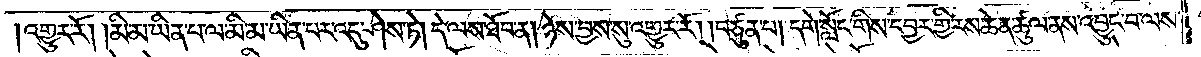འགྱུར་རོ། །མི་མ་ཡིན་པ་ལ་མི་མ་ཡིན་པར་འདུ་ཤེས་ཏེ། དེ་ལས་ཐོབ་ན། ཉེས་བྱས་སུ་འགྱུར་རོ། །བཙུན་པ། དགེ་སློང་གིས་དབྱར་གྱི་རས་ཆེན་ཚུལ་ནས་འབྱུང་བ་ལས་
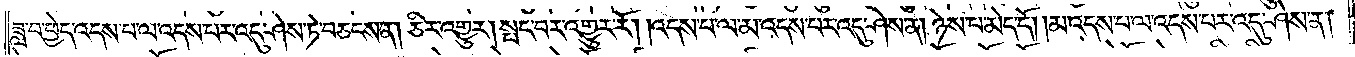ཟླ་བ་ཕྱེད་འདས་པ་ལ་འདས་པར་འདུ་ཤེས་ཏེ་བཅངས་ན། ཅིར་འགྱུར། སྤང་བར་འགྱུར་རོ། །འདས་པ་ལ་མ་འདས་པར་འདུ་ཤེས་ན། ཉེས་པ་མེད་དོ། །མ་འདས་པ་ལ་འདས་པར་འདུ་ཤེས་ན།
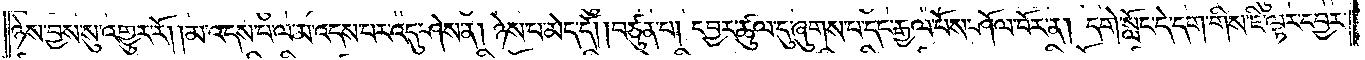ཉེས་བྱས་སུ་འགྱུར་རོ། །མ་འདས་པ་ལ་མ་འདས་པར་འདུ་ཤེས་ན། ཉེས་པ་མེད་དོ། །བཙུན་པ། དབྱར་ཚུལ་དུ་ཞུགས་པ་དང་རྒྱལ་པོས་ཤོལ་བོར་ན། དགེ་སློང་དེ་དག་གིས་ཇི་ལྟར་དབྱར་
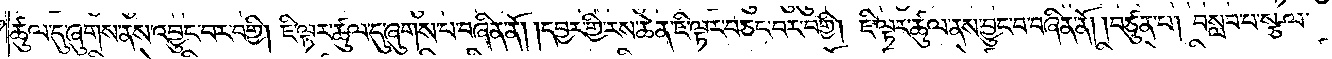ཚུལ་དུ་ཞུགས་ནས་འབྱུང་བར་བགྱི། ཇི་ལྟར་ཚུལ་དུ་ཞུགས་པ་བཞིན་ནོ། །དབྱར་གྱི་རས་ཆེན་ཇི་ལྟར་བཅང་བར་བགྱི། ཇི་ལྟར་ཚུལ་ནས་བྱུང་ང་བཞིན་ནོ། །བཙུན་པ། བསླབ་པ་སྩལ་
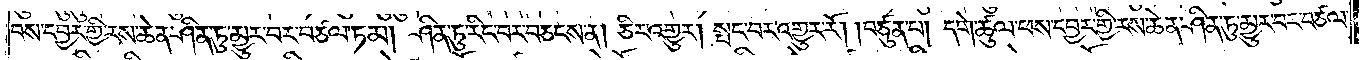བས་དབྱར་གྱི་རས་ཆེན་ཤིན་ཏུ་མྱུར་བར་བཙལ་ཏམ། ཤིན་ཏུ་རིང་བར་བཅངས་ན། ཅིར་འགྱུར། སྤང་བར་འགྱུར་རོ། །བཙུན་པ། དགེ་ཚུལ་ཕས་དབྱར་གྱི་རས་ཆེན་ཤིན་ཏུ་མྱུར་བར་བཙལ་
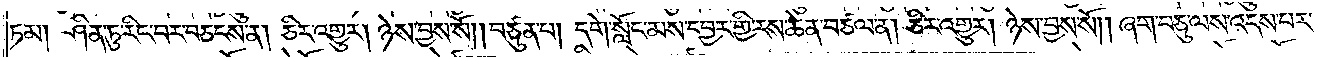ཏམ། ཤིན་ཏུ་རིང་བར་བཅངས་ན། ཅིར་འགྱུར། ཉེས་བྱས་སོ། །བཙུན་པ། དགེ་སློང་མས་དབྱར་གྱི་རས་ཆེན་བཙལ་ན། ཅིར་འགྱུར། ཉེས་བྱས་སོ། ཞག་བཅུ་ལས་འདས་པར་
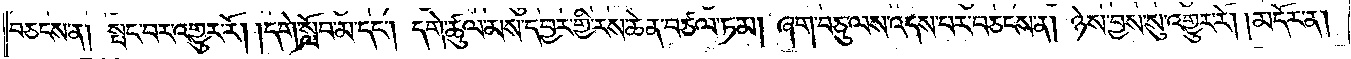བཅངས་ན། སྤང་བར་འགྱུར་རོ། །དགེ་སློབ་མ་དང༌། དགེ་ཚུལ་མས་དབྱར་གྱི་རས་ཆེན་བཙལ་ཏམ། ཞག་བཅུ་ལས་འདས་པར་བཅངས་ན། ཉེས་བྱས་སུ་འགྱུར་རོ། །མདོར་ན།
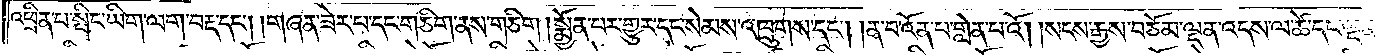འཕྲིན་པ་སྤྲིང་ཡིག་ལག་བརྡ་དང༌། །གཞན་ཟེར་པ་དང་གཅིག་ནས་གཅིག །སྨྱོན་པར་གྱུར་དང་སེམས་འཁྲུགས་དང༌། །ན་བ་འོན་པ་གླེན་པ་འོ། །སངས་རྒྱས་བཅོམ་ལྡན་འདས་ལ་ཚེ་དང་ལྡན་
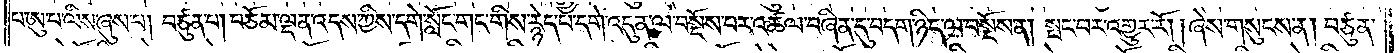པ་ཨུ་པ་ལིས་ཞུས་པ། བཙུན་པ། བཅོམ་ལྡན་འདས་ཀྱིས་དགེ་སློང་གང་གིས་རྙེད་པ་དགེ་འདུན་ལ་བསྔོས་པར་འཚལ་བཞིན་དུ་བདག་ཉིད་ལ་བསྔོས་ན། སྤང་བར་འགྱུར་རོ། །ཞེས་གསུངས་ན། བཙུན་
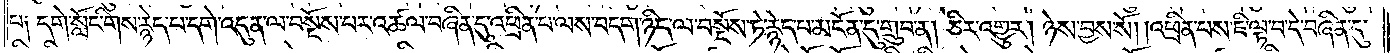པ༑ དགེ་སློང་གིས་རྙེད་པ་དགེ་འདུན་ལ་བསྔོས་པར་འཚལ་བཞིན་དུ་འཕྲིན་པ་ལས་བདག་ཉིད་ལ་བསྔོས་ཏེ་རྙེད་པ་མངོན་དུ་གྲུབ་ན། ཅིར་འགྱུར། ཉེས་བྱས་སོ། །འཕྲིན་པས་ཇི་ལྟ་བ་དེ་བཞིན་དུ་
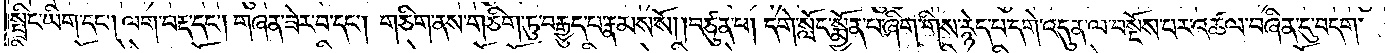སྤྲིང་ཡིག་དང༌། ལག་བརྡ་དང༌། གཞན་ཟེར་བ་དང༌། གཅིག་ནས་གཅིག་ཏུ་བརྒྱུད་པ་རྣམས་སོ། །བཙུན་པ། དགེ་སློང་སྨྱོན་པ་ཞིག་གིས་རྙེད་པ་དགེ་འདུན་ལ་བསྔོས་པར་འཚལ་བཞིན་དུ་བདག་
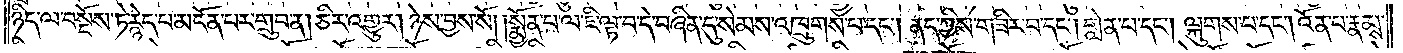ཉིད་ལ་བསྔོས་ཏེ་རྙེད་པ་མངོན་པར་གྲུབ་ན། ཅིར་འགྱུར། ཉེས་བྱས་སོ། །སྨྱོན་པ་ལ་ཇི་ལྟ་བ་དེ་བཞིན་དུ་སེམས་འཁྲུགས་པ་དང༌། ནད་ཀྱིས་གཟིར་བ་དང༌། གླེན་པ་དང༌། ལྐུགས་པ་དང༌། འོན་པ་རྣམས་
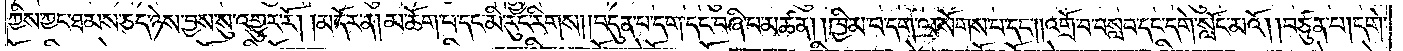ཀྱིས་ཀྱང་ཐམས་ཅད་ཉེས་བྱས་སུ་འགྱུར་རོ། །མདོར་ན། མ་ཆོག་པ་དང་མི་རུང་རིགས། །བདུན་པ་དག་དང་བཞི་པ་མཚན། །ཁྱིམ་པ་དག་ལ་སོགས་པ་དང༌། །འགྲོ་བ་བསླབ་དང་དགེ་སློང་མའོ། །བཙུན་པ། དགེ་
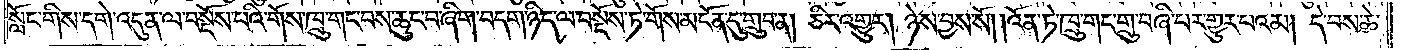སློང་གིས་དགེ་འདུན་ལ་བསྔོས་པའི་གོས་ཁྲུ་གང་བས་ཆུང་བ་ཞིག་བདག་ཉིད་ལ་བསྔོས་ཏེ་གོས་མངོན་དུ་གྲུབ་ན། ཅིར་འགྱུར། །ཉེས་བྱས་སོ། །འོན་ཏེ་ཁྲུ་གང་གྲུ་བཞི་པར་གྱུར་པའམ། དེ་བས་ཆེ་
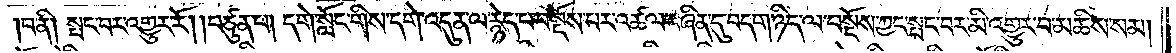།བ་ནི། སྤང་བར་འགྱུར་རོ། །བཙུན་པ། དགེ་སློང་གིས་དགེ་འདུན་ལ་རྙེད་པ་བསྔོས་པར་འཚལ་བཞིན་དུ་བདག་ཉིད་ལ་བསྔོས་ཀྱང་སྤང་བར་མི་འགྱུར་བ་མཆིས་སམ།
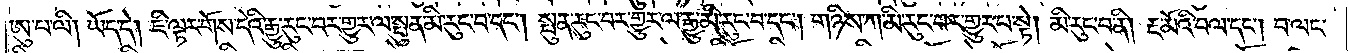ཨུ་པ་ལི། ཡོད་དེ། ཇི་ལྟར་གོས་དེའི་རྒྱུ་རུང་བར་གྱུར་ལ་སྤུན་མི་རུང་བ་དང༌། སྤུན་རུང་བར་གྱུར་ལ་རྒྱུ་མི་རུང་བ་དང༌། གཉིས་ཀ་མི་རུང་བར་གྱུར་པ་སྟེ། མི་རུང་བ་ནི། རྔ་མོའི་བལ་དང༌། བ་ལང་
